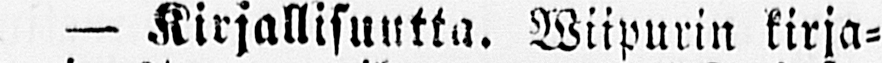- Kirjallisuutta. Wiipurin kirja-
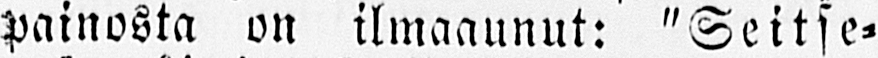painosta on ilmaaunut: "Seitse-
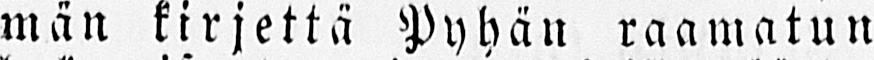män kirjettä Pyhän raamatun
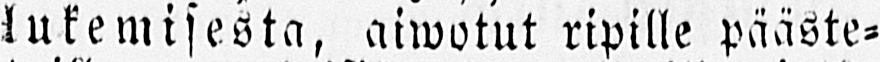lukemisesta, aiwotut ripille pääste-
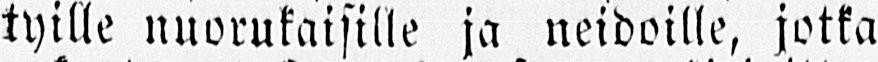tyille nuorukaisille ja neidoille, jotka
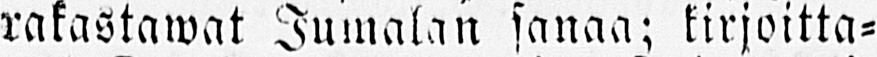rakastawat Jumalan sanaa; kirjoitta-
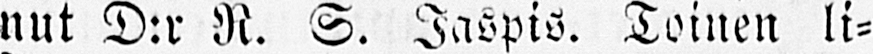nut D:r R. S. Jaspis. Toinen li-
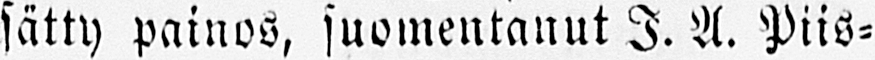sätty painos, suomentanut I. A. Piis-
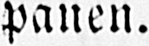panen.
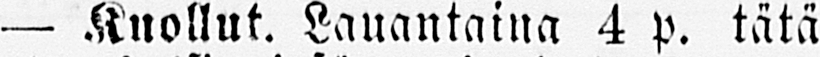— Kuollut. Lauantaina 4 p. tätä
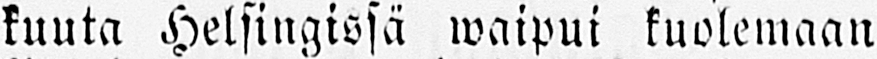kuuta Helsingissä waipui kuolemaan
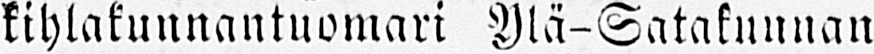kihlakunnantuomari Ylä- Satakunnan
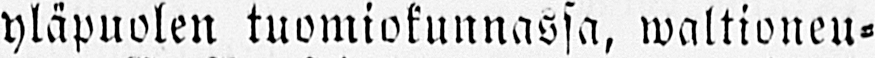yläpuolen tuomiokunnassa, waltioneu-
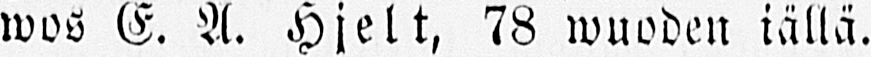wos E. A. Hjelt, 78 wuoden iällä.
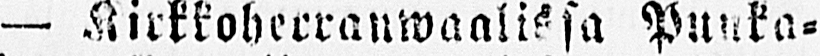— Kirkkoherranwaalissa Punka-
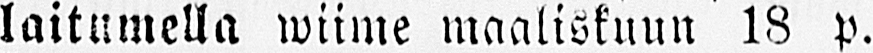laitumella wiime maaliskuun 18 p.
